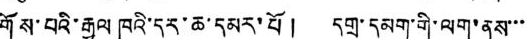གོས་པའི་རྒྱལ ཁའི་དར་ཆ་དམར་པོ། དགྲ་དམག་གི་ལག་ནས་་་
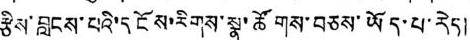རྩིས་བླངས་པའི་དངོས་རིགས་སྣ་ཚོགས་བཅས་ཡོད་པ་རེད།
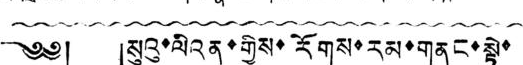༄༅། །སུའུ་ལིའན་གྱིས་རོགས་རམ་གནང་སྟེ་
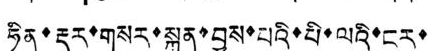ཧིན་རྡུར་གསར་སྐྲུན་བྱས་པའི་པི་ལའི་ངར་
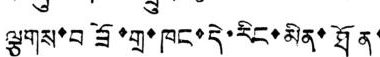ལྕགས་བཟོ་གྲ་ཁང་དེ་རིང་མིན་ཐོན་
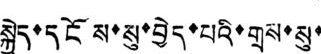སྐྱེད་དངོས་སུ་བྱེད་པའི་གྲས་སུ་
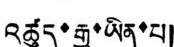འཚུད་རྒྱུ་ཡིན་པ།
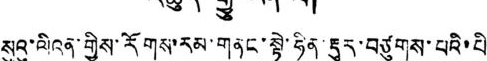སུའུ་ལིའན་གྱིས་རོགས་རམ་གནང་སྟེ་ཧིན་རྡུར་བཙུགས་པའི་པི་
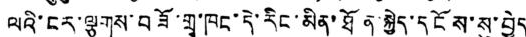ལའི་ངར་ལྕགས་བཟོ་གྲྭ་ཁང་དེ་རིང་མིན་ཐོན་སྐྱེད་དངོས་སུ་བྱེད་
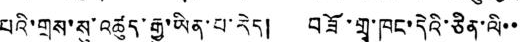པའི་གྲས་སུ་འཚུད་རྒྱུ་ཡིན་པ་རེད། བཟོ་གྲྭ་ཁང་དེའི་ཅིན་ལི་་་
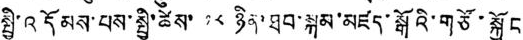སྤྱི་འདོམས་པས་སྤྱི་ཚེས་ ༡༨ ཉིན་ཐབ་སྐམ་མཛད་སྒོའི་གཙོ་སྐྱོང་
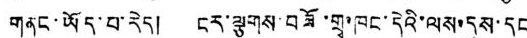གནང་ཡོད་པ་རེད། ངར་ལྕགས་བཟོ་གྲྭ་ཁང་དེའི་ལས་དུས་དང་
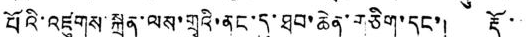པོའི་འཛུགས་སྐྲུན་ལས་གྲྭའི་ནང་དུ་ཐབ་ཆེན་གཅིག་དང་། རྡོ་་་
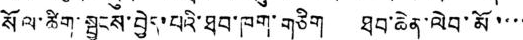སོལ་ཚིག་སྦྱངས་བྱེད་པའི་ཐབ་ཁག་གཅིག ཐབ་ཆེན་ལེབ་མོ་་་་
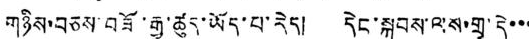གཉིས་བཅས་བཟོ་རྒྱུ་ཚུད་ཡོད་པ་རེད། དེང་སྐབས་ལས་གྲྭ་དེ་་་
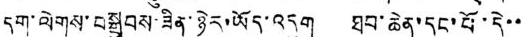དག་ལེགས་བསྒྲུབས་ཟིན་ཉེར་ཡོད་འདུག ཐབ་ཆེན་དང་པོ་དེ་་་
